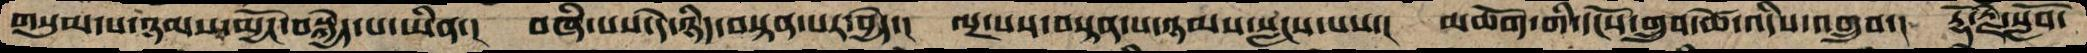གསུམ་པ་ཉམས་མྱོང་བསྐྱེད་པ་ཡིན་།  བཞི་པས་དེ་ཉིད་བསྟན་པར་བྱེད་།  ལྔ་པས་བསྟན་པ་ཉམས་སླངས་པས་།  མཆོག་གི་དངོས་གྲུབ་ཚེ་འདིས་འགྲུབ་།  རྡོ་རྗེ་སློབ་
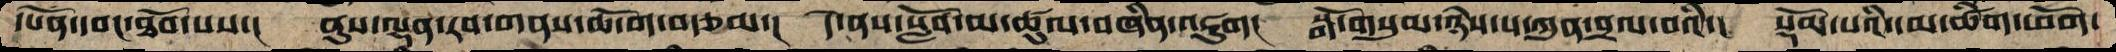དཔོན་དབང་ཐོབ་པས་།  ནུས་ལྡན་རབ་གནས་ཆོ་ག་བརྩམ་།  དེ་ནས་སློབ་མ་ཚུལ་བཞིན་འཇུག།  སྒོ་གསུམ་ཉེས་པ་ཀུན་བྲལ་བའི་།  སྡོམ་པའི་དམ་ཚིག་ཕོག་
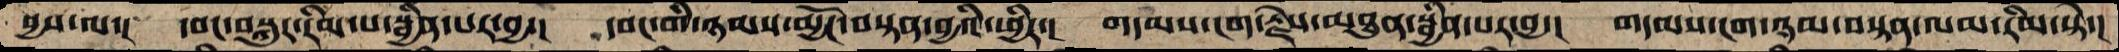བྱས་ལ་།  དབང་བསྐུར་རིམ་པ་སྦྱིན་པར་བྱ་།  དབང་གི་ཉམས་མྱོང་བསྟན་བྱའི་ཕྱིར་།  གདམས་ངག་རྗེས་མཐུན་སྦྱིན་པར་བྱ་།  གདམས་ངག་ཉམ་བསྟན་ལམ་རིམ་སྟེ་།
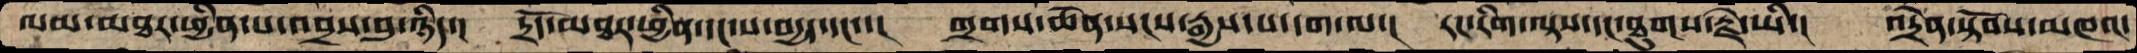ལམ་མཐར་ཕྱིན་པ་འབྲས་བུ་ཉིད་།  དྲོད་མཐར་ཕྱིན་དང་ས་བདྱད་དང་་།  གྲགས་ཆེན་སངས་རྒྱས་ས་དག་ལ་།  རང་རིག་ལྟས་དང་ཐུགས་རྗེ་ཡི་།  འདྲེན་སྟོབས་མཁའ་
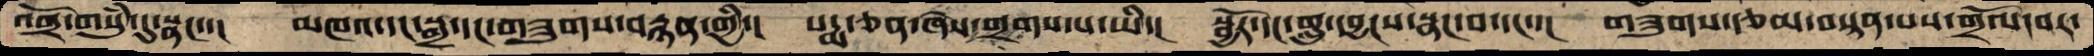འགྲོ་གསུཾ་དུསྣང་་།  མཁའ་དང་སྒྲ་དང་གཟུགས་བརྙན་གྱི་།  པདྨ་ཅན་ཞེས་གྲགས་པ་ཡི་།  སྦྱོར་དང་གླུ་དབྱངས་སྣང་བ་དང་་།  གཟུགས་རྩམ་བསྟན་པས་གྲོལ་བར་
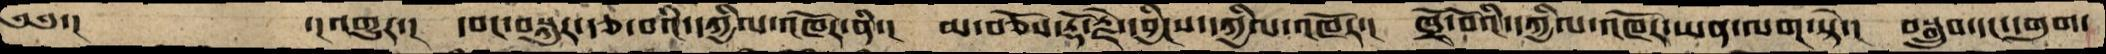༄༅་།        ་།འགྱུར་།  དབང་བསྐུར་རྩ་བའི་དཀྱིལ་འཁོར་ནི་།  མ་བཅོས་རྡོ་རྗེ་དབྱིངས་དཀྱིལ་འཁོར་།  ཁྲོ་བོའི་དཀྱིལ་འཁོར་ཡན་ལག་སྟེ་།  བསྒྲུབ་དང་དགུག་
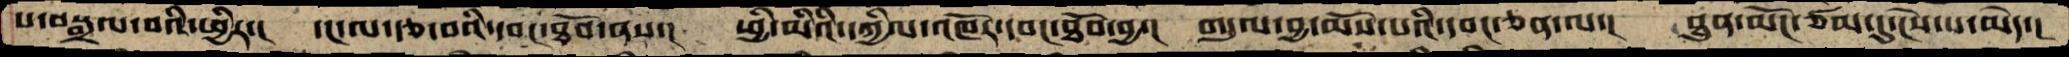པ་བསྒྲལ་བའི་ཕྱིར་།  དང་ལ་རྩ་བའི་དབང་ཐོབ་ནས་།  ཕྱི་མའི་དཀྱིལ་འཁོར་དབང་ཐོབ་བྱ་།  གདུལ་བྱ་མོས་པའི་དབང་ཅན་ལ་།  ཐུན་མོང་ཙམ་དུ་ངེས་པ་མེད་།
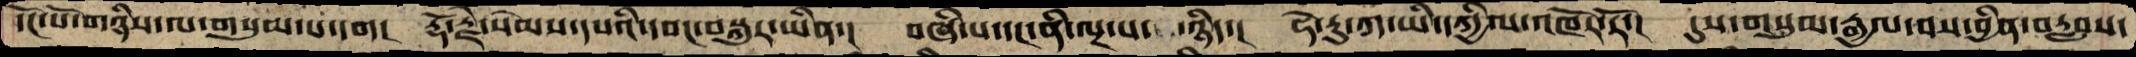དངོ་པོ་གཉིས་ལ་གསུམ་པ་དག།  རྡོ་རྗེ་སེམས་དཔའི་དབང་བསྐུར་ཡིན་།  བཞི་པ་དང་ནི་ལྔ་པ་ ཉིད་།  ཧེ་རུ་ཀ་ཡི་དཀྱིལ་འཁོར་རོ་།  དུས་གསུམ་རྒྱལ་བས་བྱིན་བརླབས་
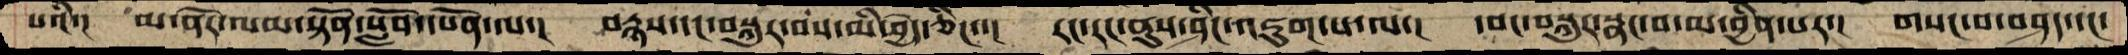པའི་།    མ་ནོར་ལམ་སྟོན་སློབ་དཔོན་ལ་།   བརྙས་དང་བསྐུར་བས་མི་བྱེད་ཅིང་་།  རང་རང་ནུས་ཤིང་འཇུག་པ་ལ་།  དབང་བསྐུར་སྣང་བ་མ་བྱིན་པར་།  གསང་བ་བཤད་དང་
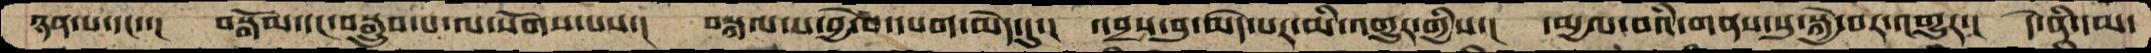ཉན་པ་དང་་།  བསྒོམ་དང་བསྒྲུབ་པ་ལ་སོགས་པས་།  བསྐལ་པ་བྱེ་བ་དཔག་མེད་དུ་།  འབྲས་བུ་མེད་པར་མི་འགྱུར་གྱིས་།  དམྱལ་བའི་གནས་སུ་སྐྱེ་བར་འགྱུར་།  དེ་ནི་དམ་
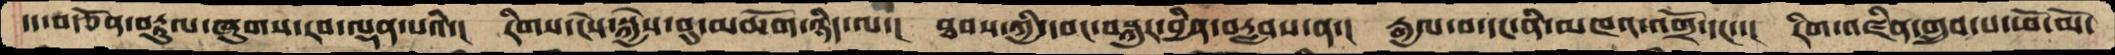དད་བརྩོན་བརྟུལ་ཞུགས་རབ་ལྡན་པའི་།   རིགས་ངེས་སྐྱེས་བུ་མཆོག་ཉིད་ལ་།  ཐབས་ཀྱི་དབང་བསྐུར་བྱིན་བརླབས་ན་།  རྒྱལ་བ་དང་ནི་མཁའ་འགྲོ་དང་་།  རིག་འཛིན་གྲུབ་པ་ཕོ་མོ་
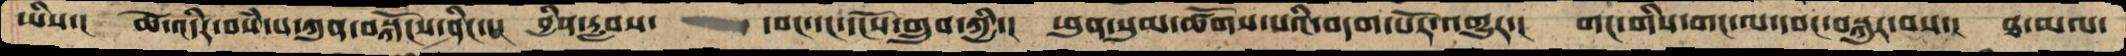ཡིས་།   ཚེ་འདིར་བསཾ་པ་ཀུན་བསྐོངས་ཤིང་་།   བྱིན་རླབས་   དབང་དང་དངོས་གྲུབ་ཀྱི་།  ཕུན་སུམ་ཚོགས་པའི་བདག་པོར་འགྱུར་།  གང་གིས་གང་ལ་དབང་བསྐུར་བས་།  ཐ་མལ་
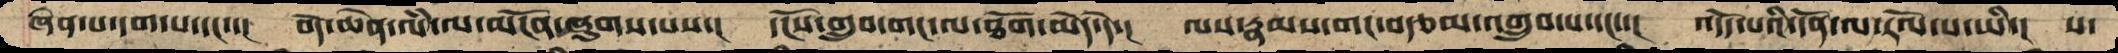ཞེན་པ་དག་པ་དང་་།  བདེ་ཆེན་ལཾ་ལ་མངོན་ཞུགས་པས་།  དངོས་གྲུབ་གང་ལ་ཐོག་མེད་དེ་།  ལས་རྣམས་གང་བརྩམ་འགྲུབ་པ་དང་་།  འདོད་པའི་དོན་ལ་རོལ་པ་ཡི་།  ས་
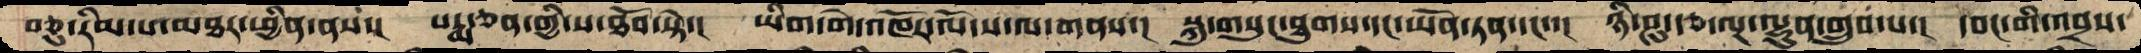བཅུ་རིམ་པ་མཐར་ཕྱིན་ནས་།  པདྨ་ཅན་གྱི་ས་ཐོབ་སྟེ་།  ཡིག་གེ་འཁོར་ལོ་ས་ལ་གནས་།  སྐུ་གསུང་ཐུགས་དང་ཡོན་ཏན་དང་་།  ཉི་ཤུ་རྩ་ལྔ་ལྷུན་གྲུབ་པ་།  དབང་གི་འབྲས་
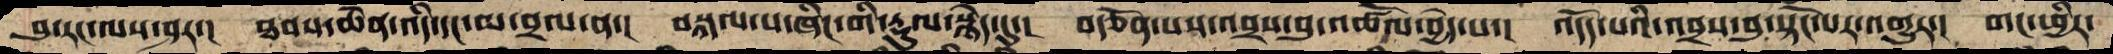བུ་རང་ལས་ཤར་།  ཐབས་ཆེན་འདི་དང་མ་བྲལ་ན་།  བསྐལ་པ་ཞིང་གི་རྟུལ་སྙེད་དུ་།  བརྩོན་པས་འབྲས་བུ་འཚོལ་བྱེད་པ་།  འདོད་པའི་འབྲས་བུ་སྟོང་པར་འགྱུར་།  གང་ཕྱིར་
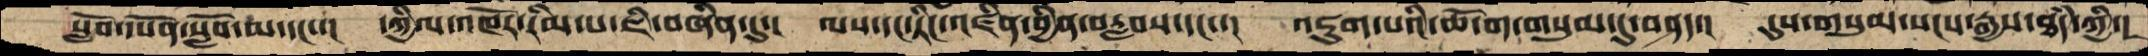སློབ་དཔོན་སློབ་མ་དང་་།  དཀྱིལ་འཁོར་རིམ་པ་ཇི་བཞིན་དུ་།  ལས་དང་ཏིང་འཛིན་བྱིན་བརླབས་དང་་།  འཇུག་པའི་ཆོ་ག་གསུམ་དུ་བཤད་།  དུས་གསུམ་སངས་རྒྱས་ཐདཾ་ཀྱི་།
